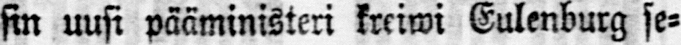sin uusi pääministeri kreiwi Eulenburg se-
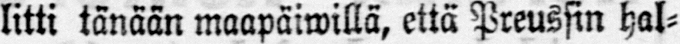litti tänään maapäiwillä, että Preussin hal-
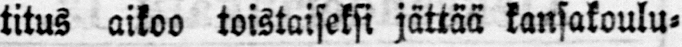titus aikoo toistaiseksi jättää kansakoulu-
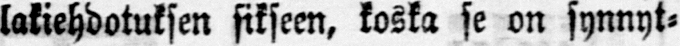lakiehdotuksen sikseen, koska se on synnyt-
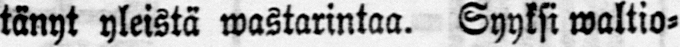tänyt yleistä wastarintaa. Syyksi waltio-
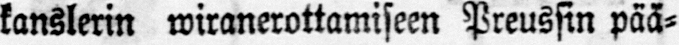kanslerin wiranerottamiseen Preussin pää-
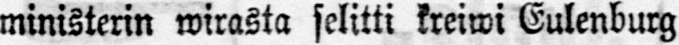ministerin wirasta selitti kreiwi Eulenburg
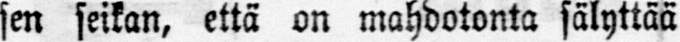sen seikan, että on mahdotonta sälyttää
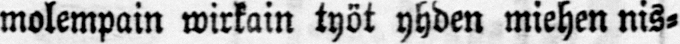molempain wirkain työt yhden miehen nis-
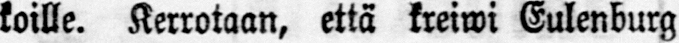koille. Kerrotaan, että kreiwi Eulenburg
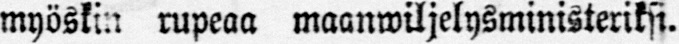myöskin rupeaa maanwiljelysministeriksi.
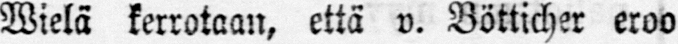Wielä kerrotaan, että v. Bötticher eroo
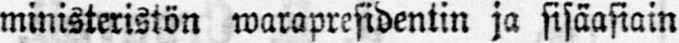ministeristön warapresidentin ja sisäasiain
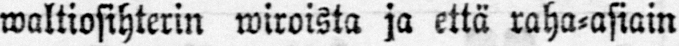waltiosihterin wiroista ja että raha-asiain
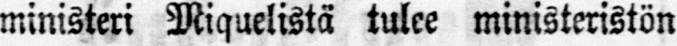ministeri Miquelistä tulee ministeristön
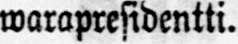warapresidentti.
